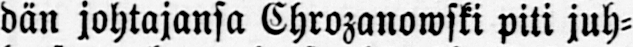dän johtajansa Chrozanowski piti juh-
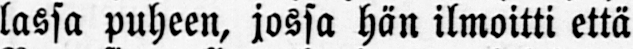lassa puheen, jossa hän ilmoitti että
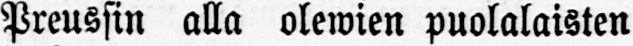Preussin alla olewien puolalaisten
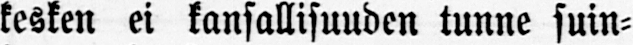kesken ei kansallisuuden tunne suin-
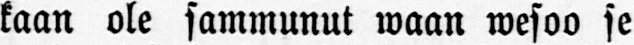kaan ole sammunut waan wesoo se
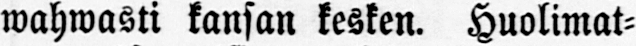wahwasti kansan kesken. Huolimat-
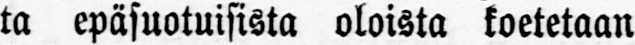ta epäsuotuisista oloista koetetaan
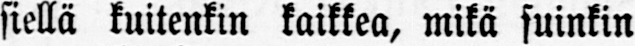siellä kuitenkin kaikkea, mikä suinkin
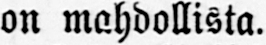on mahdollista.
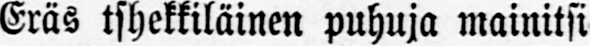Eräs tshekkiläinen puhuja mainitsi
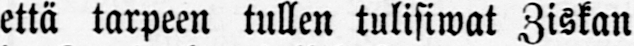että tarpeen tullen tulisiwat Ziskan
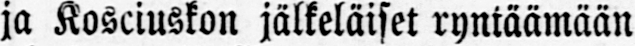ja Kosciuskon jälkeläiset ryntäämään
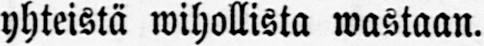yhteistä wihollista wastaan.
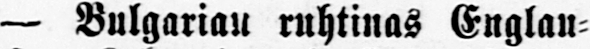— Bulgarian ruhtinas Englau-
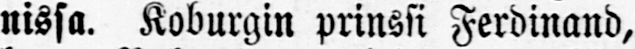nissa. Koburgin prinssi Ferdinand,
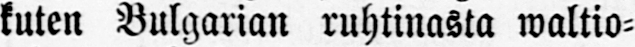kuten Bulgarian ruhtinasta waltio-
